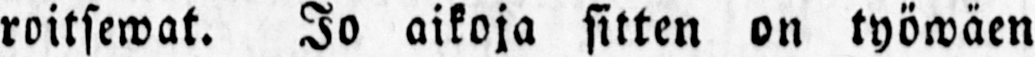roitsewat. Jo aikoja sitten on työwäen
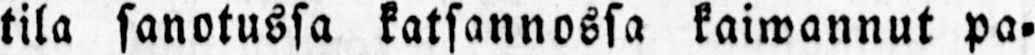tila sanotussa katsannossa kaiwannut pa-
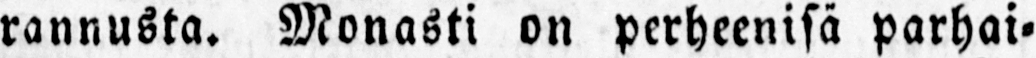rannusta. Monasti on perheenisä parhai-
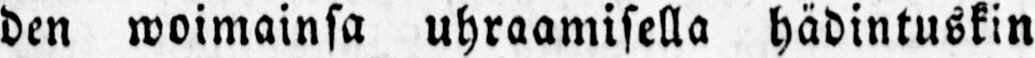den woimainsa uhraamisella hädintuskin
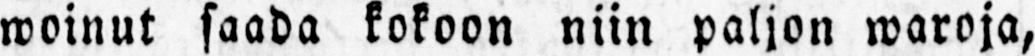woinut saada kokoon niin paljon waroja,
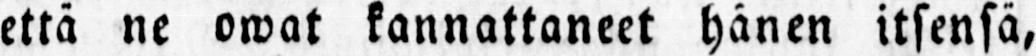että ne owat kannattaneet hänen itsensä,
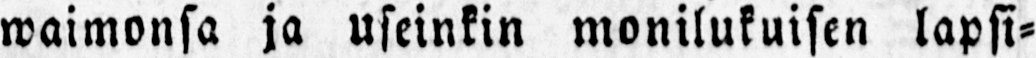waimonsa ja useinkin monilukuisen lapsi-
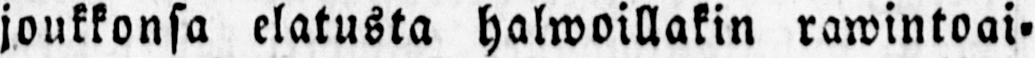joukkonsa elatusta halwoillakin rawintoai-
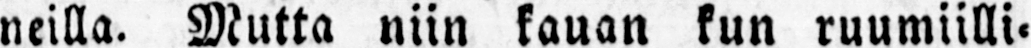neilla. Mutta niin kauan kun ruumiilli-
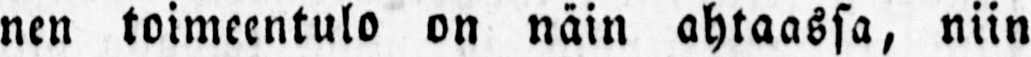nen toimeentulo on näin ahtaassa, niin
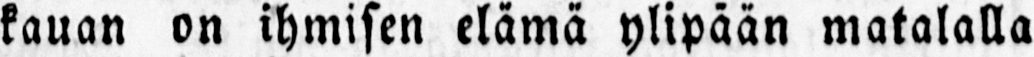kauan on ihmisen elämä ylipään matalalla
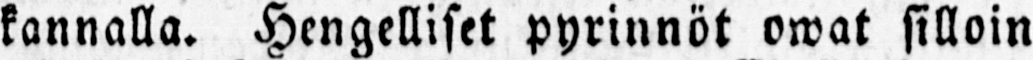kannalla. Hengelliset pyrinnöt owat silloin
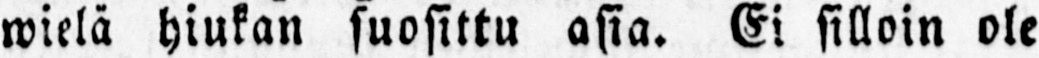wielä hiukan suosittu asia. Ei silloin ole
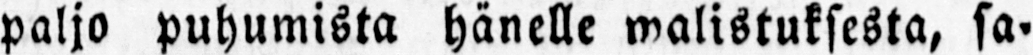paljo puhumista hänelle walistuksesta, sa-
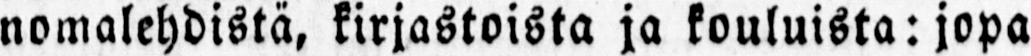nomalehdistä, kirjastoista ja kouluista: jopa
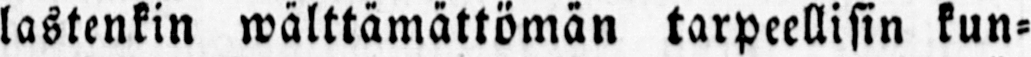lastenkin wälttämättömän tarpeellisin kun-
